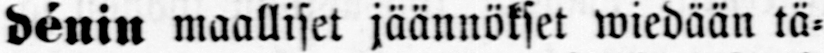dénin maalliset jäännökset wiedään tä-
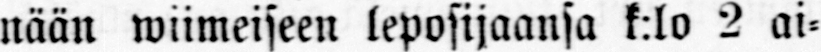nään wiimeiseen leposijaansa k:lo 2 ai-
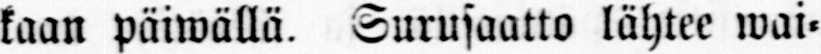kaan päiwällä. Surusaatto lähtee wai-
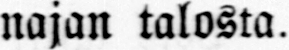najan talosta.
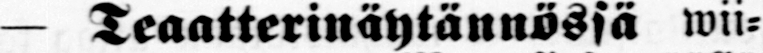— Teaatterinäytännössä wii-
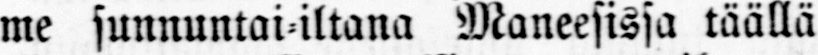me sunnuntai-iltana Maneesissa täällä
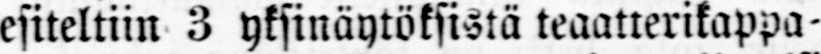esiteltiin 3 yksinäytöksistä teaatterikappa-
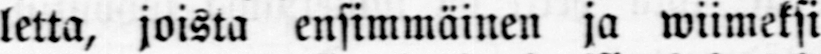letta, joista ensimmäinen ja wiimeksi
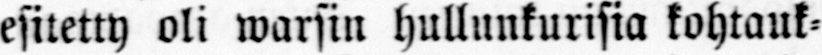esitetty oli warsin hullunkurisia kohtauk-
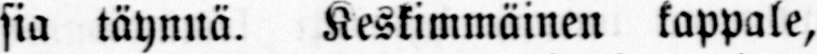sia täynnä. Keskimmäinen kappale,
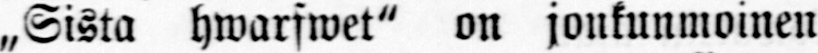„Sista hwarfwet" on jonkunmoinen
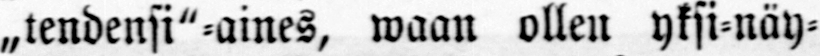„tendensi"-aines, waan ollen yksi-näy-
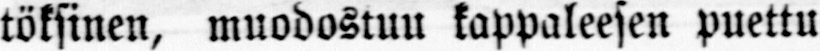töksinen, muodostuu kappaleesen puettu
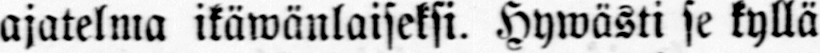ajatelma ikäwänlaiseksi. Hywästi se kyllä
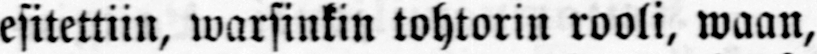esitettiin, warsinkin tohtorin rooli, waan,
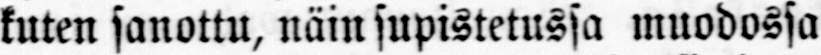kuten sanottu, näin supistetussa muodossa
